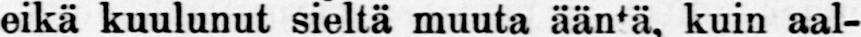eikä kuulunut sieltä muuta ääntä, kuin aal-
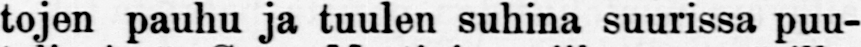tojen pauhu ja tuulen suhina suurissa puu-
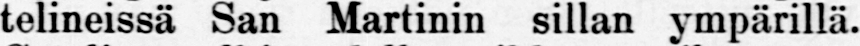telineissä San Martinin sillan ympärillä.
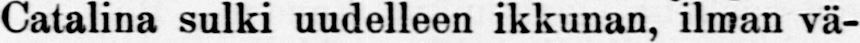Catalina sulki uudelleen ikkunan, ilman vä-
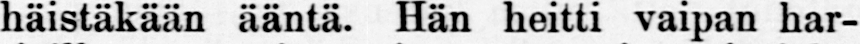häistäkään ääntä. Hän heitti vaipan har-
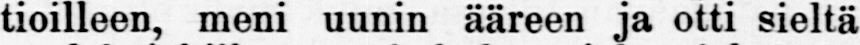tioilleen, meni uunin ääreen ja otti sieltä
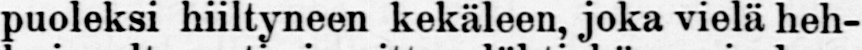puoleksi hiiltyneen kekäleen, joka vielä heh-
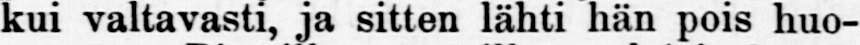kui valtavasti, ja sitten lähti hän pois huo-
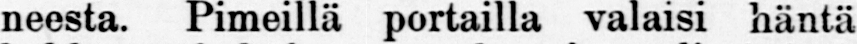neesta. Pimeillä portailla valaisi häntä
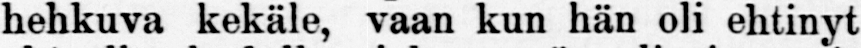hehkuva kekäle, vaan kun kän oli ehtinyt
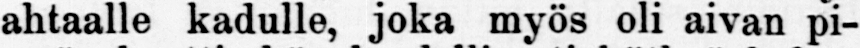ahtaalle kadulle, joka myös oli aivan pi-
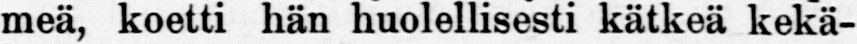meä, koetti hän huolollisesti kätkeä kekä-
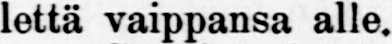lettä vaippansa alle.
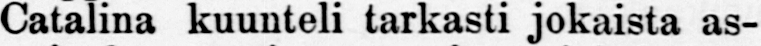Catalina kuunteli tarkasti jokaista as-
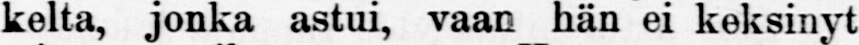kelta, jonka astui, vaan hän ei keksinyt
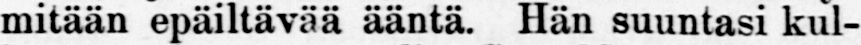mitään epäiltävää ääntä. Hän suuntasi kul-
